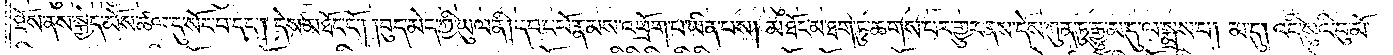ཐོས་ནས་སྐྱེད་མོས་ཚལ་དུ་སོང་བ་དང༌། དེས་མཐོང་ངོ༌། །བུད་མེད་ཀྱི་ཡུལ་ནི། དབང་པོ་རྣམས་འཕྲོག་པ་ཡིན་པས། མཐོང་མ་ཐག་ཏུ་ཆགས་པར་གྱུར་ནས་དེས་ཀུན་ཏུ་རྒྱུ་མ་དུ་ལ་སྨྲས་པ། མ་དུ། འདི་སུའི་བུ་མོ་
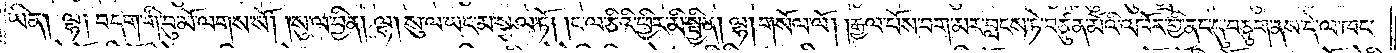ཡིན། ལྷ། བདག་གི་བུ་མོ་ལགས་སོ། །སུ་ལ་བྱིན། ལྷ། སུ་ལ་ཡང་མ་སྩལ་ཏོ། །ང་ལ་ཅིའི་ཕྱིར་མི་སྦྱིན། ལྷ། གསོལ་ལོ། །རྒྱལ་པོས་བག་མར་བླངས་ཏེ་བཙུན་མོའི་འཁོར་གྱི་ནང་དུ་བཅུག་ནས་དེ་ལ་ཁང་
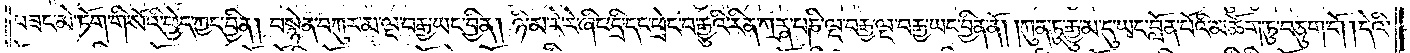བཟང་མེ་ཏོག་གི་སོའི་ཕྱེད་ཀྱང་བྱིན། བསྙེན་བཀུར་མ་ལྔ་བརྒྱ་ཡང་བྱིན། ཉི་མ་རེ་རེ་ཞིང་དྲི་དང་ཕྲེང་བ་རྒྱུའི་རིན་ཀཪྴ་པ་ཎི་ལྔ་བརྒྱ་ལྔ་བརྒྱ་ཡང་བྱིན་ནོ། །ཀུན་ཏུ་རྒྱུ་མ་དུ་ཡང་བློན་པོའི་མཆོག་ཏུ་བཅུག་གོ །དེའི་
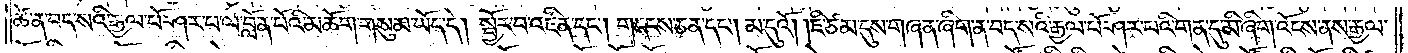ཚེ་ན་བད་སའི་རྒྱལ་པོ་ཤར་པ་ལ་བློན་པོའི་མཆོག་གསུམ་ཡོད་དེ། སྦྱོར་བ་འཛིན་དང༌། གདངས་ཅན་དང༌། མ་དུའོ། །ཇི་ཙམ་དུས་གཞན་ཞིག་ན་བད་སའི་རྒྱལ་པོ་ཤར་བའི་གན་དུ་མི་ཞིག་འོངས་ནས་རྒྱལ་
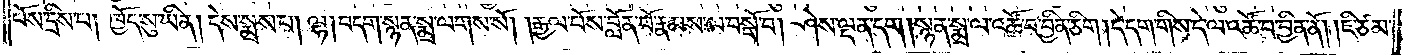པོས་དྲིས་པ། ཁྱོད་སུ་ཡིན། དེས་སྨྲས་པ། ལྷ། བདག་སྙན་སྨྲ་ལགས་སོ། །རྒྱལ་པོས་བློན་པོ་རྣམས་ལ་བསྒོ་བ། ཤེས་ལྡན་དག །སྙན་སྨྲ་ལ་འཚོ་བ་བྱིན་ཅིག །དེ་དག་གིས་དེ་ལ་འཚོ་བ་བྱིན་ནོ། །ཇི་ཙམ་
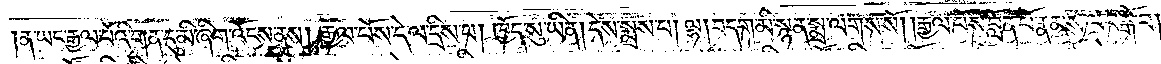ན་ཡང་རྒྱལ་པོའི་གན་དུ་མི་ཞིག་འོངས་ནས། རྒྱལ་པོས་དེ་ལ་དྲིས་པ། ཁྱོད་སུ་ཡིན། དེས་སྨྲས་པ། ལྷ། བདག་མི་སྙན་སྨྲ་ལགས་སོ། །རྒྱལ་པོས་བློན་པོ་རྣམས་ལ་བསྒོ་བ།
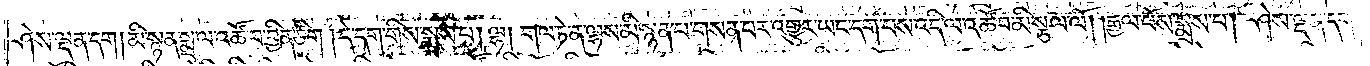ཤེས་ལྡན་དག །མི་སྙན་སྨྲ་ལ་འཚོ་བ་བྱིན་ཅིག །དེ་དག་གིས་སྨྲས་པ། ལྷ། གལ་ཏེ་ན་ལྷས་མི་སྙན་པ་གསན་པར་འགྱུར་ཡང་དག་པས་འདི་ལ་འཚོ་བ་མི་སྩལ་ལོ། །རྒྱལ་པོས་སྨྲས་པ། ཤེས་ལྡན་དག།
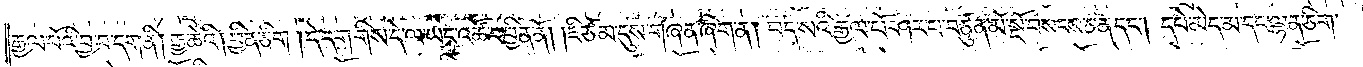རྒྱལ་པོའི་བྱ་བ་དག་ནི། རྒྱ་ཆེའི། བྱིན་ཅིག །དེ་དག་གིས་དེ་ལ་ཡང་འཚོ་བ་བྱིན་ནོ། །ཇི་ཙམ་དུས་གཞན་ཞིག་ན། བད་སའི་རྒྱལ་པོ་ཤར་བ་བཙུན་མོ་སྔོ་བསངས་ཅན་དང༌། དཔེ་མེད་མ་དང་ལྷན་ཅིག་
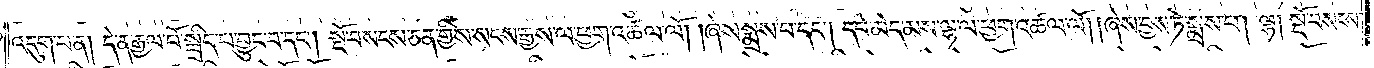འདུག་པ་ན། དེ་ན་རྒྱལ་པོ་སྦྲིད་པ་བྱུང་བ་དང༌། སྔོ་བསངས་ཅན་གྱིས་སངས་རྒྱས་ལ་ཕྱག་འཚལ་ལོ། །ཞེས་སྨྲས་པ་དང༌། དཔེ་མེད་མས་ལྷ་ལ་ཕྱག་འཚལ་ལོ། །ཞེས་བྱས་ཏེ་སྨྲས་པ། ལྷ། སྔོ་བསངས་
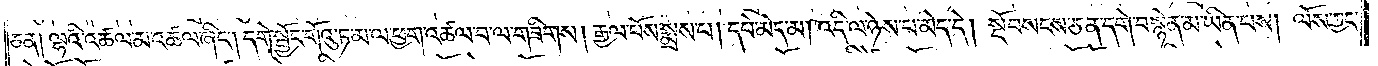ཅན། ལྷའི་འཚལ་མ་འཚལ་ཞིང༌། དགེ་སྦྱོང་གོའུ་ཏ་མ་ལ་ཕྱག་འཚལ་བ་ལ་གཟིགས། རྒྱལ་པོས་སྨྲས་པ། དཔེ་མེད་མ། འདི་ལ་ཉེས་པ་མེད་དེ། སྔོ་བསངས་ཅན་དགེ་བསྙེན་མ་ཡིན་པས། ལོས་ཀྱང་
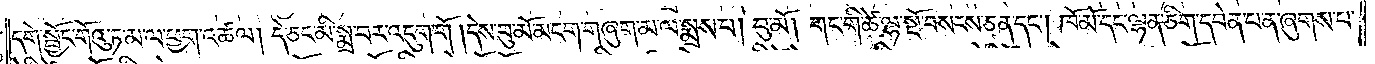དགེ་སྦྱོང་གོའུ་ཏ་མ་ལ་ཕྱག་འཚལ། དེ་ཅང་མི་སྨྲ་བར་འདུག་གོ། དེས་བུ་མོ་མངག་གཞུག་མ་ལ་སྨྲས་པ། བུ་མོ། གང་གི་ཚེ་ལྷ་སྔོ་བསངས་ཅན་དང༌། ཁོ་མོ་དང་ལྷན་ཅིག་དབེན་པ་ན་ཞུགས་པ་
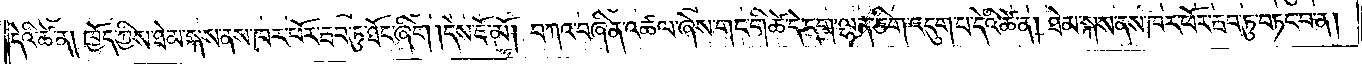དེའི་ཚེ་ན། ཁྱོད་ཀྱིས་ཐེམ་སྐས་ནས་ཁར་ཕོར་རྦབ་ཏུ་ཐོང་ཞིག །དེས་ཇོ་མོ། བཀའ་བཞིན་འཚལ་ཞེས་གང་གི་ཚེ་དེ་དག་ལྷན་ཅིག་འདུག་པ་དེའི་ཚེ་ན། ཐེམ་སྐས་ནས་ཁར་ཕོར་རྦབ་ཏུ་བཏང་བ་ན།
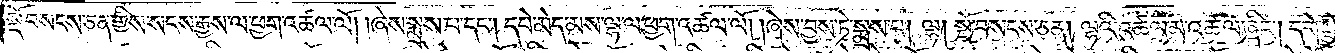སྔོ་བསངས་ཅན་གྱིས་སངས་རྒྱས་ལ་ཕྱག་འཚལ་ལོ། །ཞེས་སྨྲས་པ་དང༌། དཔེ་མེད་མས་ལྷ་ལ་ཕྱག་འཚལ་ལོ། །ཞེས་བྱས་ཏེ་སྨྲས་པ། ལྷ། སྔོ་བསངས་ཅན། ལྷའི་འཚལ་མ་འཚལ་ཞིང༌། དགེ་སྦྱོང་
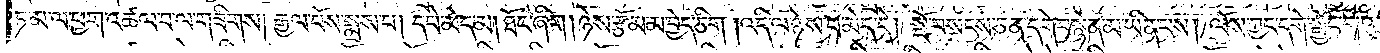ཏ་མ་ལ་ཕྱག་འཚལ་བ་ལ་གཟིགས། རྒྱལ་པོས་སྨྲས་པ། དཔེ་མེད་མ། ཐོང་ཞིག །ཉེས་རྩོམ་མ་བྱེད་ཅིག །འདི་ལ་ཉེས་པ་མེད་དེ། སྔོ་བསངས་ཅན་དགེ་བསྙེན་མ་ཡིན་པས། ལོས་ཀྱང་དགེ་སྦྱོང་གོའུ་
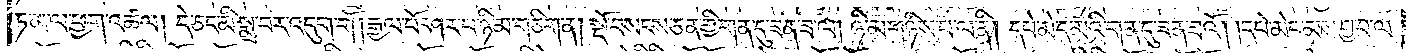ཏ་མ་ལ་ཕྱག་འཚལ། དེ་ཅང་མི་སྨྲ་བར་འདུག་གོ །རྒྱལ་པོ་ཤར་པ་ཉི་མ་གཅིག་ན། སྔོ་བསངས་ཅན་གྱི་གན་དུ་ཟན་ཟ་ལ། ཉི་མ་གཉིས་པ་ལ་ནི། དཔེ་མེད་མའི་གན་དུ་ཟན་ཟའོ། །དཔེ་མེད་མས་བྱ་བ་ལ་
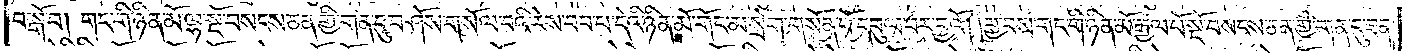བསྒོ་བ། གང་གི་ཉིན་མོ་ལྷ་སྔོ་བསངས་ཅན་གྱི་གན་དུ་བཤོས་གསོལ་བའི་རེས་བབ་པ་དེའི་ཉིན་མོ་གོང་མ་སྲེག་གསོན་པོ་དབུལ་བར་བྱའོ། །བྱ་བས་གང་གི་ཉིན་མོ་རྒྱལ་པོ་སྔོ་བསངས་ཅན་གྱི་གན་དུ་ཟན་
